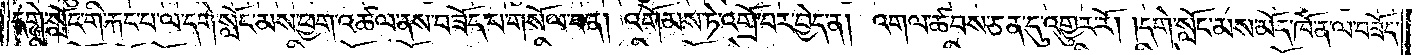དགེ་སློང་གི་རྐང་པ་ལ་དགེ་སློང་མས་ཕྱག་འཚལ་ནས་བཟོད་པ་གསོལ་བ་ན། འགོམས་ཏེ་འགྲོ་བར་བྱེད་ན། འགལ་ཚབས་ཅན་དུ་འགྱུར་རོ། །དགེ་སློང་མས་མོད་ཁོ་ན་ལ་བཟོད་
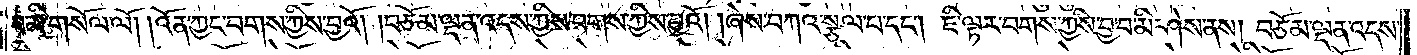བ་མི་གསོལ་ལོ། །འོན་ཀྱང་བགས་ཀྱིས་བྱའོ། །བཅོམ་ལྡན་འདས་ཀྱིས་བགས་ཀྱིས་བྱའོ། །ཞེས་བཀའ་སྩལ་པ་དང༌། ཇི་ལྟར་བགས་ཀྱིས་བྱ་བ་མི་ཤེས་ནས། བཅོམ་ལྡན་འདས་
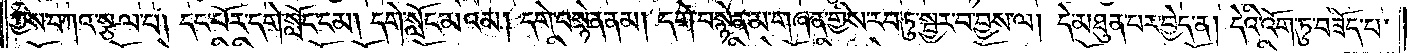ཀྱིས་བཀའ་སྩལ་པ། དང་པོར་དགེ་སློང་ངམ། དགེ་སློང་མའམ། དགེ་བསྙེན་ནམ། དགེ་བསྙེན་མ་གཞན་གྱིས་རབ་ཏུ་སྦྱར་བ་བྱས་ལ། དེ་མཐུན་པར་བྱེད་ན། དེའི་འོག་ཏུ་བཟོད་པ་
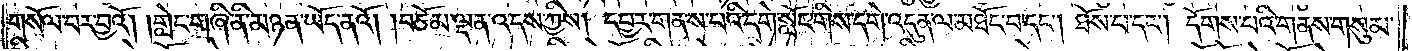གསོལ་བར་བྱའོ། །གླེང་གཞི་ནི་མཉན་ཡོད་ནའོ། །བཅོམ་ལྡན་འདས་ཀྱིས། དབྱར་གནས་པའི་དགེ་སློང་གིས་དགེ་འདུན་ལ་མཐོང་བ་དང༌། ཐོས་པ་དང༌། དོགས་པའི་གནས་གསུམ་
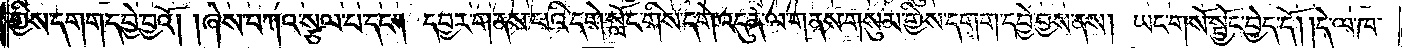གྱིས་དགག་དབྱེ་བྱའོ། །ཞེས་བཀའ་སྩལ་པ་དང༌། དབྱར་གནས་པའི་དགེ་སློང་གིས་དགེ་འདུན་ལ་གནས་གསུམ་གྱིས་དགག་དབྱེ་བྱས་ནས། ཡང་གསོ་སྦྱོང་བྱེད་དོ། །དེ་ལ་ཁ་
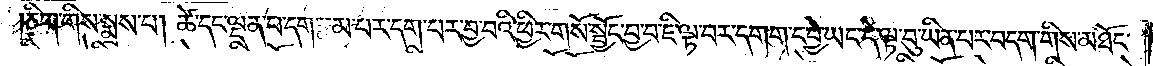ཅིག་གིས་སྨྲས་པ། ཚེ་དང་ལྡན་པ་དག་རྣམ་པར་དག་པར་བྱ་བའི་ཕྱིར་གསོ་སྦྱོང་བྱ་བ་ཇི་ལྟ་བར་དགག་དབྱེ་ཡང་དེ་ལྟ་བུ་ཡིན་པར་བདག་གིས་མཐོང་
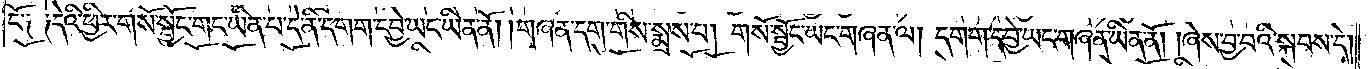ངོ༑ ༑དེའི་ཕྱིར་གསོ་སྦྱོང་གང་ཡིན་པ་དེ་ནི་དགག་དབྱེ་ཡང་ཡིན་ནོ། །གཞན་དག་གིས་སྨྲས་པ། གསོ་སྦྱོང་ཡང་གཞན་ལ། དགག་དབྱེ་ཡང་གཞན་ཡིན་ནོ། །ཞེས་བྱ་བའི་སྐབས་དེ།
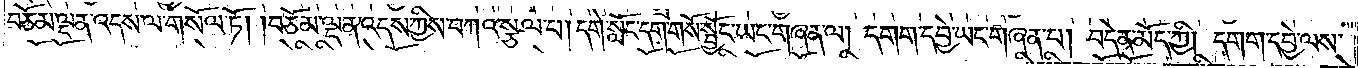བཅོམ་ལྡན་འདས་ལ་གསོལ་ཏོ། །བཅོམ་ལྡན་འདས་ཀྱིས་བཀའ་སྩལ་པ། དགེ་སློང་དག་གསོ་སྦྱོང་ཡང་གཞན་ལ། དགག་དབྱེ་ཡང་གཞན་པ། བདེན་མོད་ཀྱི། དགག་དབྱེ་ལས་
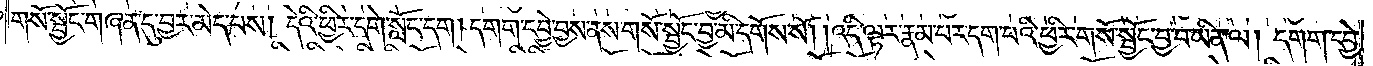གསོ་སྦྱོང་གཞན་དུ་བྱར་མེད་པས། དེའི་ཕྱིར་དགེ་སློང་དག །དགག་དབྱེ་བྱས་ནས་གསོ་སྦྱོང་བྱ་མི་དགོས་སོ། །འདི་ལྟར་རྣམ་པར་དག་པའི་ཕྱིར་གསོ་སྦྱོང་བྱ་བ་ཡིན་ལ། དགག་དབྱེ་
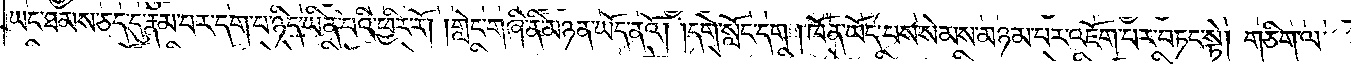ཡང་ཐམས་ཅད་དུ་རྣམ་པར་དག་པ་ཉིད་ཡིན་པའི་ཕྱིར་རོ། །གླེང་གཞི་ནི་མཉན་ཡོད་ནའོ། །དགེ་སློང་དག །ཁོན་ཡོད་པས་སེམས་མཉམ་པར་འཇོག་པར་བཏང་སྟེ། གཅིག་ལ་
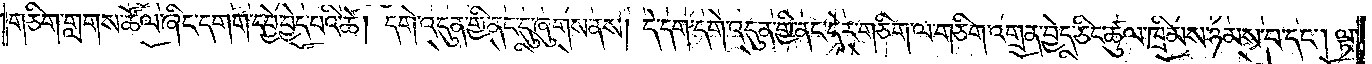གཅིག་གླགས་ཚོལ་ཞིང་དགག་དབྱེ་བྱེད་པའི་ཚེ། དགེ་འདུན་གྱི་ནང་དུ་ཞུགས་ནས། དེ་དག་དགེ་འདུན་གྱི་ནང་དེར་གཅིག་ལ་གཅིག་འགྲན་བྱེད་ཅིང་ཚུལ་ཁྲིམས་ཉམས་པ་དང༌། ལྟ་
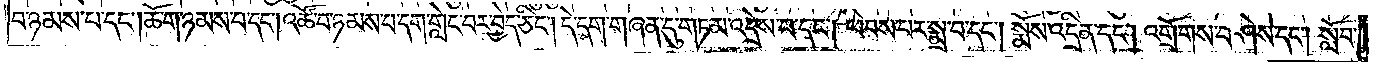བ་ཉམས་པ་དང༌། ཆོ་ག་ཉམས་པ་དང༌། འཚོ་བ་ཉམས་པ་དག་གླེང་བར་བྱེད་ཅིང༌། དེ་དག་གཞན་དུ་གཏམ་འདྲེས་པ་དང༌། ཕེབས་པར་སྨྲ་བ་དང༌། སྨོས་འདྲིན་དང༌། འགྲོགས་བཤེས་དང༌། སློབ་
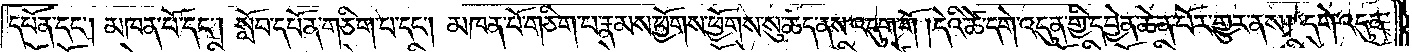དཔོན་དང༌། མཁན་པོ་དང༌། སློབ་དཔོན་གཅིག་པ་དང༌། མཁན་པོ་གཅིག་པ་རྣམས་ཕྱོགས་ཕྱོགས་སུ་ཆད་ནས་འདུག་གོ། །དེའི་ཚེ་དགེ་འདུན་གྱི་དབྱེན་ཆེན་པོར་གྱུར་ནས། དགེ་འདུན་
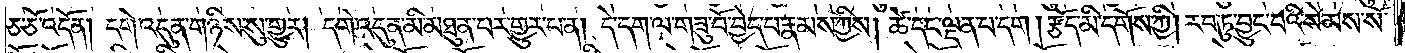ཅ་ཅོ་འདོན། དགེ་འདུན་གཉིས་སུ་གྱུར། དགེ་འདུན་མི་མཐུན་པར་གྱུར་པ་ན། དེ་དག་ལ་གཟུ་བོ་བྱེད་པ་རྣམས་ཀྱིས། ཚེ་དང་ལྡན་པ་དག །རྩོད་མི་དགོས་ཀྱི། རབ་ཏུ་བྱུང་བའི་སེམས་སོ་
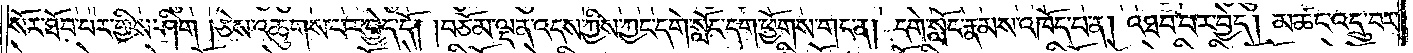སོར་ཐོབ་པར་གྱིས་ཤིག །ཅེས་འཆུགས་པར་བྱེད་དོ། །བཅོམ་ལྡན་འདས་ཀྱིས་ཀྱང་དགེ་སློང་དག་ཕྱོགས་གང་ན། དགེ་སློང་རྣམས་འཁོད་པ་ན། འཐབ་པར་བྱེད། མཚང་འདྲུ་བར་
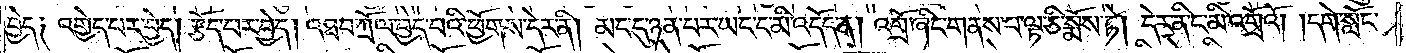བྱེད༑ འགྱེད་པར་བྱེད། རྩོད་པར་བྱེད། འཐབ་ཀྲོལ་བྱེད་པའི་ཕྱོགས་དེར་ནི། མང་དུ་ཉན་པར་ཡང་ང་མི་འདོད་ན། འགྲོ་ཞིང་གནས་པ་ལྟ་ཅི་སྨོས་ཏེ། དེར་ནི་ང་མི་འགྲོའོ། །དགེ་སློང་
